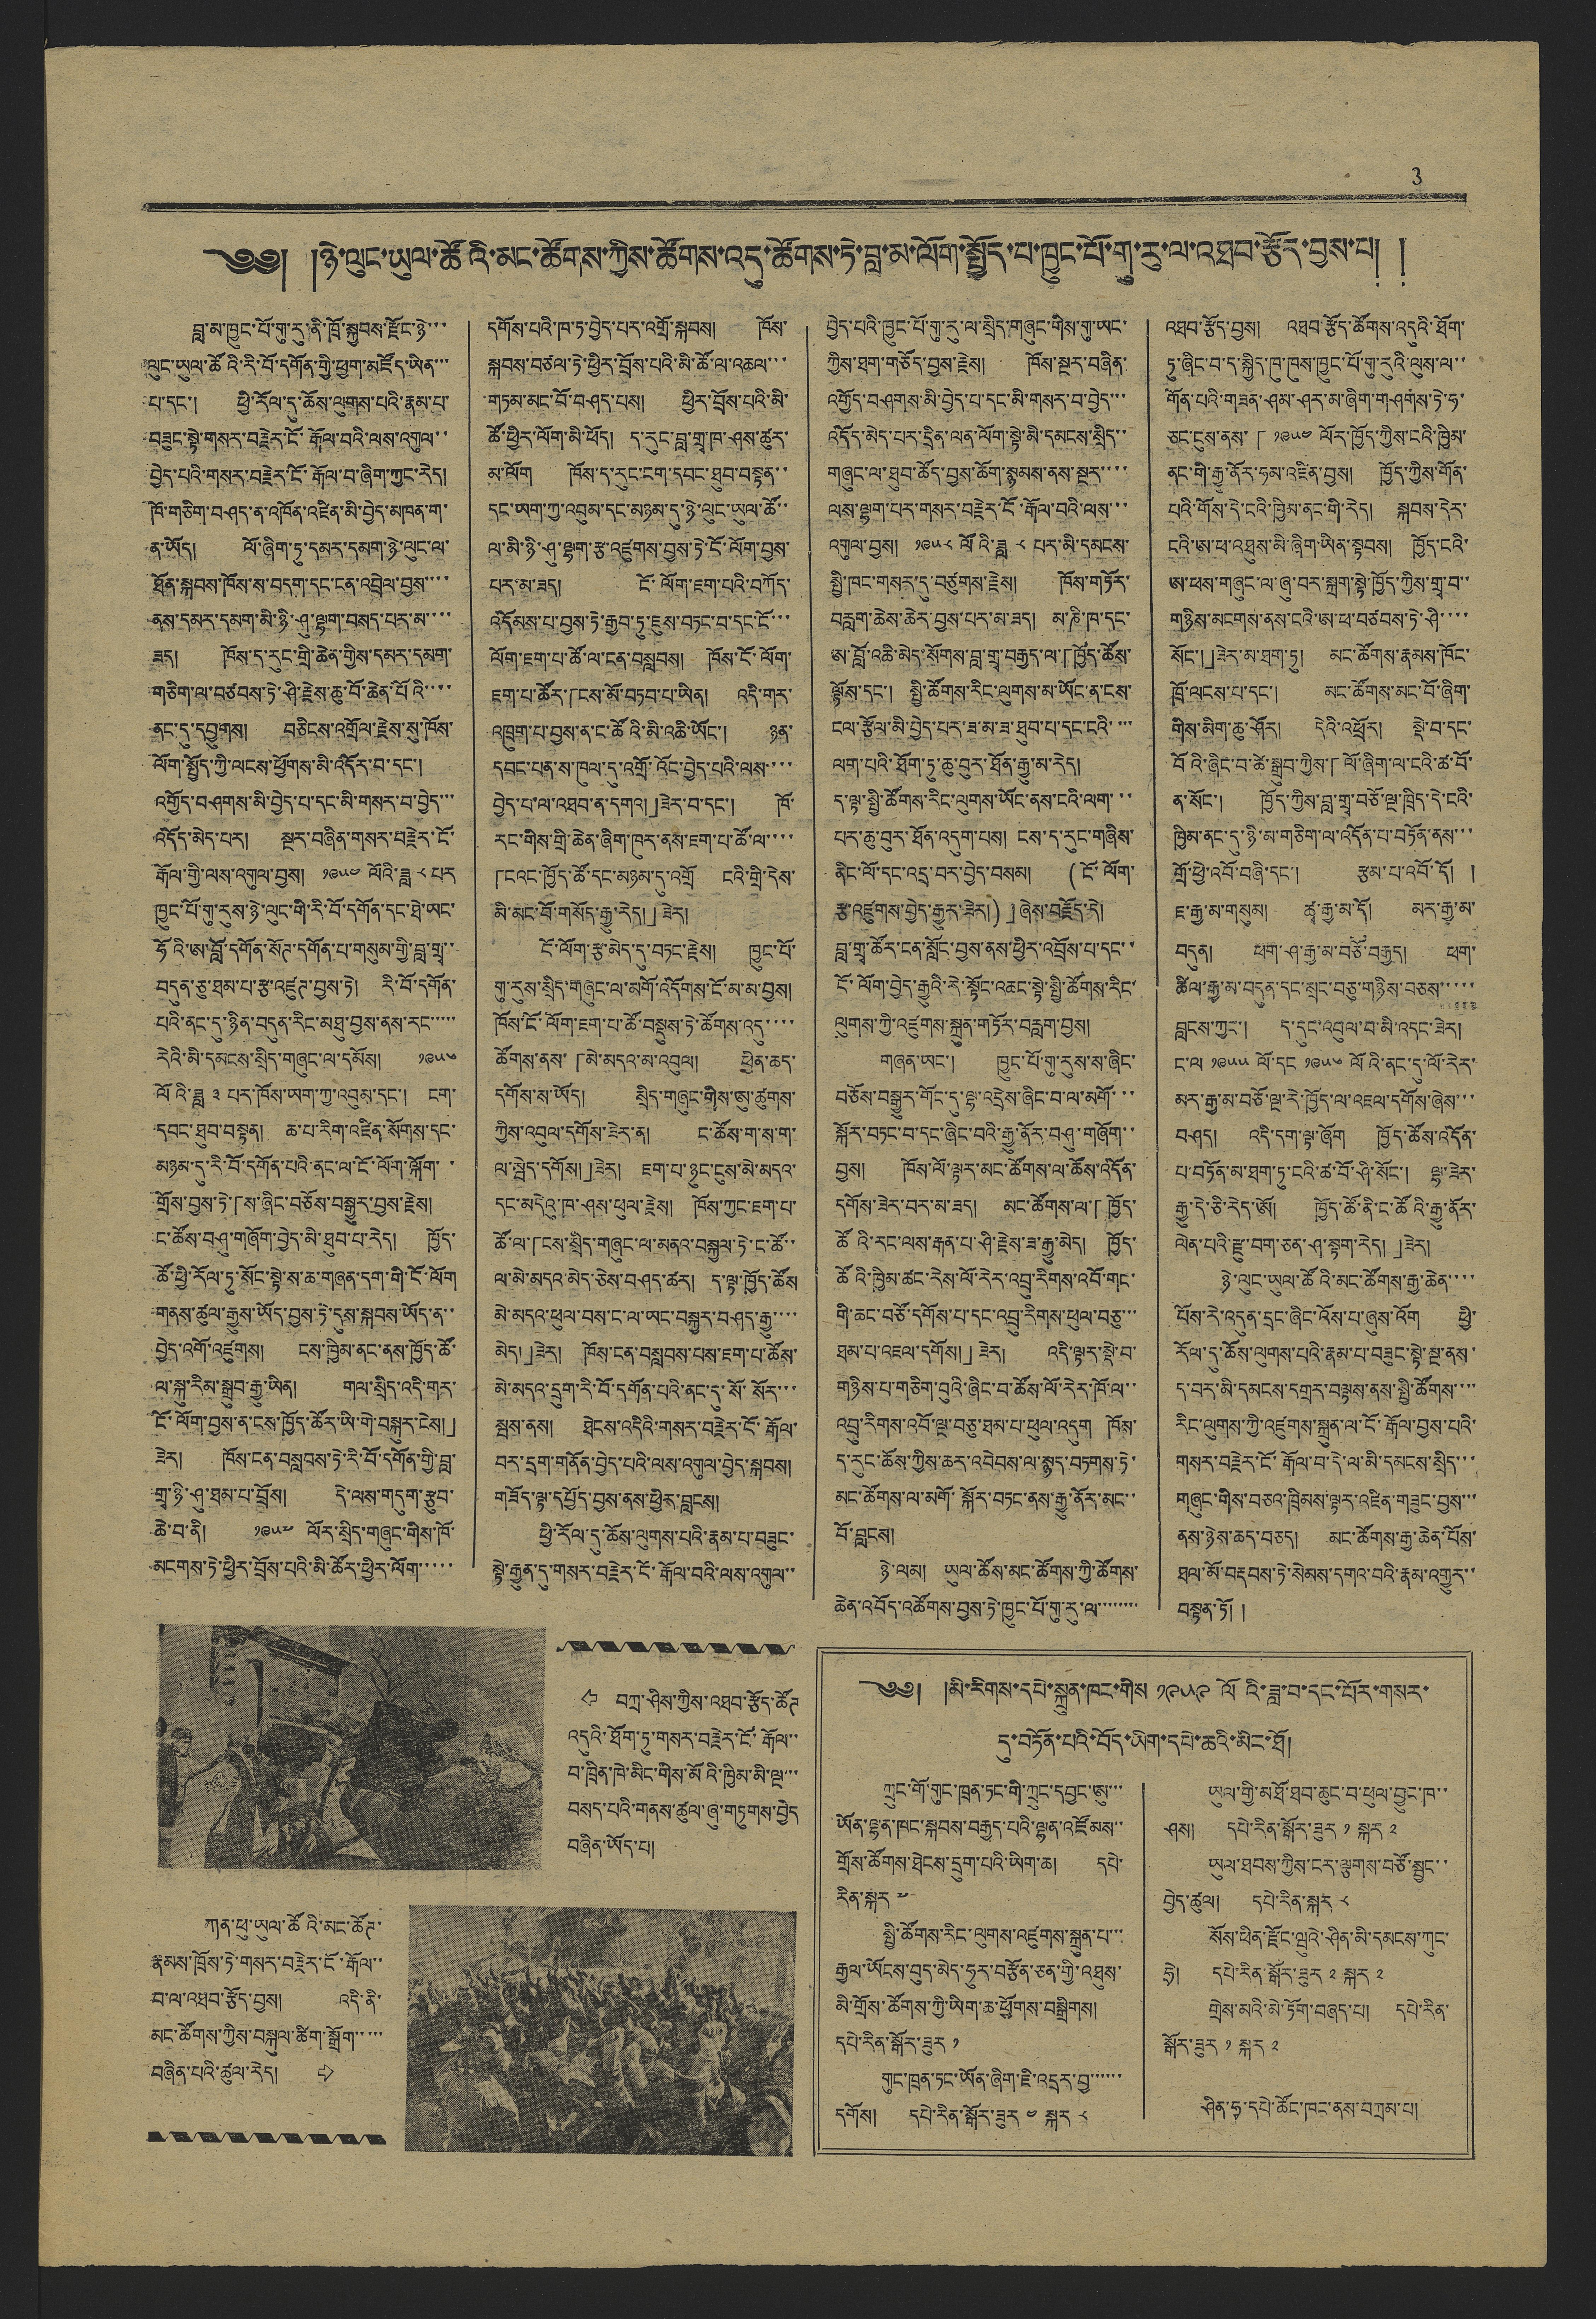3
༄༅། །ཉེ་ལུང་ཡུལ་ཚོའི་མང་ཚོགས་ཀྱིས་ཚོགས་འདུ་ཚོགས་ཏེ་བླ་མ་ལོག་སྤྱོད་པ་ཁྱུང་པོ་གུ་རུ་ལ་འཐབ་རྩོད་བྱས་པ། །
བླ་མ་ཁྱུང་པོ་གུ་རུ་ནི་ཁྲོ་སྐྱབས་རྫོང་ཉེ་་་
ལུང་ཡུལ་ཚོའི་རི་བོ་དགོན་གྱི་ཕྱག་མཛོད་ཡིན་་་
པ་དང་། ཕྱི་རོལ་དུ་ཆོས་ལུགས་པའི་རྣམ་པ་
བཟུང་སྟེ་གསར་བརྗེར་ངོ་རྒོལ་བའི་ལས་འགུལ་་
བྱེད་པའི་གསར་བརྗེར་ངོ་རྒོལ་བ་ཞིག་ཀྱང་རེད།
ཁོ་གཅིག་བཤད་ན་འཁོན་འཛིན་མི་བྱེད་མཁན་ག་
ན་ཡོད། ལོ་ཞིག་ཏུ་དམར་དམག་ཉེ་ལུང་ལ་
ཐོན་སྐབས་ཁོས་ས་བདག་དང་ངན་འབྲེལ་བྱས་་་་
ནས་དམར་དམག་མི་ཉི་ཤུ་ལྷག་བསད་པར་མ་་་་
ཟད། ཁོས་ད་རུང་གྲི་ཆེན་གྱིས་དམར་དམག་
གཅིག་ལ་བཙབས་ཏེ་ཤི་རྗེས་ཆུ་བོ་ཆེན་པོའི་་་་
ནང་དུ་དབྱུགས། བཅིངས་འགྲོལ་རྗེས་སུ་ཁོས་
ལོག་སྤྱོད་ཀྱི་ལངས་ཕྱོགས་མི་འདོར་བ་དང་།
འགྱོད་བཤགས་མི་བྱེད་པ་དང་མི་གསར་བ་བྱེད་་་
འདོད་མེད་པར། སྔར་བཞིན་གསར་བརྗེར་ངོ་
རྒོལ་གྱི་ལས་འགུལ་བྱས། ༡༩༥༤ ལོའི་ཟླ ༨ པར་
ཁྱུང་པོ་གུ་རུས་ཉེ་ལུང་གི་རི་བོ་དགོན་དང་ཐེ་ཡང་
ཧོའི་ཨ་བློ་དགོན་སོཊ་དགོན་པ་གསུམ་གྱི་བླ་གྲྭ་་
བདུན་ཅུ་ཐམ་པ་རྩ་འཛུཊ་བྱས་ཏེ། རི་བོ་དགོན་
པའི་ནང་དུ་ཉིན་བདུན་རིང་མཐུ་བྱས་ནས་རང་་་་
རེའི་མི་དམངས་སྲིད་གཞུང་ལ་དམོས། ༡༩༥༦
ལོའི་ཟླ ༣ པར་ཁོས་ཡག་ཀྱ་འབུམ་དང་། ངག་
དབང་ཐུབ་བསྟན། ཆ་པ་རིག་འཛིན་སོགས་དང་
མཉམ་དུ་རི་བོ་དགོན་པའི་ནང་ལ་ངོ་ལོག་ལྐོག་་
གྲོས་བྱས་ཏེ་「ས་ཞིང་བཅོས་བསྒྱུར་བྱས་རྗེས།
ང་ཚོས་བཤུ་གཞོག་བྱེད་མི་ཐུབ་པ་རེད། ཁྱོད་
ཚོ་ཕྱི་རོལ་ཏུ་སོང་སྟེ་ས་ཆ་གཞན་དག་གི་ངོ་ལོག
གནས་ཚུལ་རྒྱུས་ཡོད་བྱས་ཏེ་དུས་སྐབས་ཡོད་ན་་
བྱེད་འགོ་འཛུགས། ངས་ཁྱིམ་ནང་ནས་ཁྱོད་ཚོ་
ལ་སྐུ་རིམ་སྒྲུབ་རྒྱུ་ཡིན། གལ་སྲིད་འདི་གར་
ངོ་ལོག་བྱས་ན་ངས་ཁྱོད་ཚོར་ཡི་གེ་བསྐུར་ངེས།」
ཟེར། ཁོས་ངན་བསླབས་ཏེ་རི་བོ་དགོན་གྱི་བླ་
གྲྭ་ཉི་ཤུ་ཐམ་པ་བྲོས། དེ་ལས་གདུག་རྩུབ་
ཆེ་བ་ནི། ༡༩༥༧ ལོར་སྲིད་གཞུང་གིས་ཁོ་
མངགས་ཏེ་ཕྱིར་བྲོས་པའི་མི་ཚོར་ཕྱིར་ལོག་་་་་
དགོས་པའི་ཁ་ཏ་བྱེད་པར་འགྲོ་སྐབས། ཁོས་
སྐབས་བཙལ་ཏེ་ཕྱིར་བྲོས་པའི་མི་ཚོ་ལ་འཆལ་་་
གཏམ་མང་བོ་བཤད་པས། ཕྱིར་བྲོས་པའི་མི་
ཚོ་ཕྱིར་ལོག་མི་ཕོད། ད་རུང་བླ་གྲྭ་ཁ་ཤས་ཚུར་
མ་ལོག ཁོས་ད་རུང་ངག་དབང་ཐུབ་བསྟན་་
དང་ཡག་ཀྱ་འབུམ་དང་མཉམ་དུ་ཉེ་ལུང་ཡུལ་ཚོ་་
ལ་མི་ཉི་ཤུ་ལྷག་རྩ་འཛུགས་བྱས་ཏེ་ངོ་ལོག་བྱས་
པར་མ་ཟད། ངོ་ལོག་ཇག་པའི་བཀོད་
འདོམས་པ་བྱས་ཏེ་རྒྱབ་ཏུ་ཇུས་བཏང་བ་དང་ངོ་་་
ལོག་ཇག་པ་ཚོ་ལ་ངན་བསླབས། ཁོས་ངོ་ལོག་
ཇག་པ་ཚོར་「ངས་མོ་བཏབ་པ་ཡིན། འདི་གར་
འཁྲུག་པ་བྱས་ན་ང་ཚོའི་མི་འཆི་ཡོང་། ཉན་
དབང་པན་ས་ཁུལ་དུ་འགྲོ་འོང་བྱེད་པའི་ལས་་་་
བྱེད་པ་ལ་འཐབ་ན་དགའ།」ཟེར་བ་དང་། ཁོ་
རང་གིས་གྲི་ཆེན་ཞིག་ཁུར་ནས་ཇག་པ་ཚོ་ལ་་་་
「ངའང་ཁྱོད་ཚོ་དང་མཉམ་དུ་འགྲོ ངའི་གྲི་དེས་
མི་མང་བོ་གསོད་རྒྱུ་རེད།」 ཟེར།
ངོ་ལོག་རྩ་མེད་དུ་བཏང་རྗེས། ཁྱུང་པོ་
གུ་རུས་སྲིད་གཞུང་ལ་མགོ་འདོགས་ངོ་མ་མ་བྱས།
ཁོས་ངོ་ལོག་ཇག་པ་ཚོ་བསྡུས་ཏེ་ཚོགས་འདུ་་་་
ཚོགས་ནས་「མེ་མདའ་མ་འབུལ། ཕྱིན་ཆད་
དགོས་ས་ཡོད། སྲིད་གཞུང་གིས་ཨུ་ཚུགས་
ཀྱིས་འབུལ་དགོས་ཟེར་ན། ང་ཚོས་ག་ས་ག་
ལ་སྦེད་དགོས།」ཟེར། ཇག་པ་ཉུང་ངུས་མེ་མདའ་
དང་མདེའུ་ཁ་ཤས་ཕུལ་རྗེས། ཁོས་ཀྱང་ཇག་པ་
ཚོ་ལ་「ངས་སྲིད་གཞུང་ལ་མནའ་བསྐྱལ་ཏེ་ང་ཚོ་་
ལ་མེ་མདའ་མེད་ཅེས་བཤད་ཚར། ད་ལྟ་ཁྱོད་ཚོས
མེ་མདའ་ཕུལ་བས་ང་ལ་ཡང་བསྐྱར་བཤད་རྒྱུ་་་་
མེད།」ཟེར། ཁོས་ངན་བསླབས་པས་ཇག་པ་ཚོས་
མེ་མདའ་དྲུག་རི་བོ་དགོན་པའི་ནང་དུ་སོ་སོར་་
སྦས་ནས། ཐེངས་འདིའི་གསར་བརྗེར་ངོ་རྒོལ་
བར་དྲག་གནོན་བྱེད་པའི་ལས་འགུལ་བྱེད་སྐབས།
གཟོད་ལྟ་དཔྱོད་བྱས་ནས་ཕྱིར་བླངས།
ཕྱི་རོལ་དུ་ཆོས་ལུགས་པའི་རྣམ་པ་བཟུང་
སྟེ་རྒྱུན་དུ་གསར་བརྗེར་ངོ་རྒོལ་བའི་ལས་འགུལ་་
བྱེད་པའི་ཁྱུང་པོ་གུ་རུ་ལ་སྲིད་གཞུང་གིས་གུ་ཡང་
ཀྱིས་ཐག་གཅོད་བྱས་རྗེས། ཁོས་སྔར་བཞིན་
འགྱོད་བཤགས་མི་བྱེད་པ་དང་མི་གསར་བ་བྱེད་་་
འདོད་མེད་པར་དྲིན་ལན་ལོག་སྟེ་མི་དམངས་སྲིད་་
གཞུང་ལ་ཐུབ་ཚོད་བྱས་ཆོག་སྙམས་ནས་སྔར་་་་
ལས་ལྷག་པར་གསར་བརྗེར་ངོ་རྒོལ་བའི་ལས་་་
འགུལ་བྱས། ༡༩༥༨ ལོའི་ཟླ ༨ པར་མི་དམངས་
སྤྱི་ཁང་གསར་དུ་བཙུགས་རྗེས། ཁོས་གཏོར་
བརླག་ཆེས་ཆེར་བྱས་པར་མ་ཟད། མ་ཎི་ཁ་དང་
ཨ་བློ་འཆི་མེད་སོགས་བླ་གྲྭ་བརྒྱད་ལ་「ཁྱོད་ཚོས་
ལྟོས་དང་། སྤྱི་ཚོགས་རིང་ལུགས་མ་ཡོང་ན་ངས་
ངལ་རྩོལ་མི་བྱེད་པར་ཟ་མ་ཟ་ཐུབ་པ་དང་ངའི་་་་
ལག་པའི་ཐོག་ཏུ་ཆུ་བུར་ཐོན་རྒྱུ་མ་རེད།
ད་ལྟ་སྤྱི་ཚོགས་རིང་ལུགས་ཡོང་ནས་ངའི་ལག་་་
པར་ཆུ་བུར་ཐོན་འདུག་པས། ངས་ད་རུང་གཞིས་
ནིང་ལོ་དང་འདྲ་བར་བྱེད་བསམ། (ངོ་ལོག་
རྩ་འཛུགས་བྱེད་རྒྱུར་ཟེར།)」ཞེས་བརྗོད་དེ།
བླ་གྲྭ་ཚོར་ངན་སློང་བྱས་ནས་ཕྱིར་འབྲོས་པ་དང་་
ངོ་ལོག་བྱེད་རྒྱུའི་ནེ་སྟོང་འཆང་སྟེ་སྤྱི་ཚོགས་རིང་
ལུགས་ཀྱི་འཛུགས་སྐྲུན་གཏོར་བརླག་བྱས།
གཞན་ཡང་། ཁྱུང་པོ་གུ་རུས་ས་ཞིང་
བཅོས་བསྒྱུར་གོང་དུ་ལྷ་འདྲེས་ཞིང་བ་ལ་མགོ་་་
སྐོར་བཏང་བ་དང་ཞིང་བའི་རྒྱུ་ནོར་བཤུ་གཞོག་
བྱས། ཁོས་ལོ་ལྟར་མང་ཚོགས་ལ་ཆོས་འདོན་
དགོས་ཟེར་བར་མ་ཟད། མང་ཚོགས་ལ་「ཁྱོད་
ཚོའི་རང་ལས་རྒན་པ་ཤི་རྗེས་ཟ་རྒྱུ་མེད། ཁྱོད་
ཚོའི་ཁྱིམ་ཚང་རེས་ལོ་རེར་འབྲུ་རིགས་འབོ་གང་
གི་ཆང་བཙོ་དགོས་པ་དང་འབྲུ་རིགས་ཕུལ་བཅུ་་་
ཐམ་པ་འཇལ་དགོས།」ཟེར། འདི་ལྟར་སྡེ་བ་
གཉིས་པ་གཅིག་བུའི་ཞིང་བ་ཚོས་ལོ་རེར་ཁོ་ལ་་
འབྲུ་རིགས་འབོ་ལྔ་བཅུ་ཐམ་པ་ཕུལ་འདུག ཁོས་
ད་རུང་ཆོས་ཀྱིས་ཆར་འབེབས་ལ་སྙད་བཏགས་ཏེ
མང་ཚོགས་ལ་མགོ་སྐོར་བཏང་ནས་རྒྱུ་ནོར་མང་་
པོ་བླངས།
ཉེ་ལམ། ཡུལ་ཚོས་མང་ཚོགས་ཀྱི་ཚོགས་
ཆེན་འབོད་འཚོགས་བྱས་ཏེ་ཁྱུང་པོར་གུ་རུ་ལ་་་་་་་་
འཐབ་རྩོད་བྱས། འཐབ་རྩོད་ཚོགས་འདུའི་ཐོག་
ཏུ་ཞིང་བ་ད་སྐྱིད་ཁུ་ཁུས་ཁྱུང་པོ་གུ་རུའི་ལུས་ལ་་
གོན་པའི་གཟན་ཤམ་ཤར་མ་ཞིག་གཤགས་ཏེ་ཧ་
ཅང་ངུས་ནས་「༡༩༥༤ ལོར་ཁྱོད་ཀྱིས་ངའི་ཁྱིམ་
ནང་གི་རྒྱུ་ནོར་ཧམ་འཛིན་བྱས། ཁྱོད་ཀྱིས་གོན་
པའི་གོས་དེ་ངའི་ཁྱིམ་ནང་གི་རེད། སྐབས་དེར་
ངའི་ཨ་ཕ་འཐུས་མི་ཞིག་ཡིན་སྟབས། ཁྱོད་ངའི་
ཨ་ཕས་གཞུང་ལ་ཞུ་བར་སྐྲག་སྟེ་ཁྱོད་ཀྱིས་གྲྭ་བ་
གཉིས་མངགས་ནས་ངའི་ཨ་ཕ་བཙབས་ཏེ་ཤི་་་
སོང་།」ཟེར་མ་ཐག་ཏུ། མང་ཚོགས་རྣམས་ཁོང་
ཁྲོ་ལངས་པ་དང་། མང་ཚོགས་མང་བོ་ཞིག་
གིས་མིག་ཆུ་ཤོར། དེའི་འཕྲོར། སྡེ་བ་དང་
བོའི་ཞིང་བ་ཚེ་སྒྲུབ་ཀྱིས་「ལོ་ཞིག་ལ་ངའི་ཚ་བོ་
ན་སོང་། ཁྱོད་ཀྱིས་བླ་གྲྭ་བཅོ་ལྔ་ཁྲིད་དེ་ངའི་
ཁྱིམ་ནང་དུ་ཉི་མ་གཅིག་ལ་འདོན་པ་བཏོན་ནས་་་
གྲོ་ཕྱེ་འབོ་བཞི་དང་། རྩམ་པ་འབོ་དོ། །
ཇ་རྒྱ་མ་གསུམ། ཚྭ་རྒྱ་མ་དོ། མར་རྒྱ་མ་
བདུན། ཕག་ཤ་རྒྱ་མ་བཙོ་བརྒྱད། ཕག་
ཚིལ་རྒྱ་མ་བདུན་དང་སྲང་བཅུ་གཉིས་བཅས་་་་་
བླངས་ཀྱང་། ད་དུང་འབུལ་བ་མི་འདང་ཟེར།
ང་ལ ༡༩༥༥ ལོ་དང ༡༩༥༦ ལོའི་ནང་དུ་ལོ་རེར་
མར་རྒྱ་མ་བཅོ་ལྔ་རེ་ཁྱོད་ལ་འཇལ་དགོས་ཞེས་་
བཤད། འདི་དག་ལྟ་ཞོག ཁྱོད་ཚོས་འདོན་
པ་བཏོན་མ་ཐག་ཏུ་ངའི་ཚ་བོ་ཤི་སོང་། ལྷ་ཟེར་
རྒྱུ་དེ་ཅི་རེད་ཨོ། ཁྱོད་ཚོ་ནི་ང་ཚོའི་རྒྱུ་ནོར་
ལེན་པའི་རྫུ་བག་ཅན་ཤ་སྟག་རེད།」ཟེར།
ཉེ་ལུང་ཡུལ་ཚོའི་མང་ཚོགས་རྒྱ་ཆེན་་་་
པོས་རེ་འདུན་དྲང་ཞིང་འོས་པ་ཞུས་འོག ཕྱི་
རོལ་དུ་ཆོས་ལུགས་པའི་རྣམ་པ་བཟུང་སྟེ་སྔ་ནས་
ད་བར་མི་དམངས་དགྲར་བལྟས་ནས་སྤྱི་ཚོགས་་་་
རིང་ལུགས་ཀྱི་འཛུགས་སྐྲུན་ལ་ངོ་རྒོལ་བྱས་པའི་
གསར་བརྗེར་ངོ་རྒོལ་བ་དེ་ལ་མི་དམངས་སྲིད་་་
གཞུང་གིས་བཅའ་ཁྲིམས་ལྟར་འཛིན་གཟུང་བྱས་་་
ནས་ཉེས་ཆད་བཅད། མང་ཚོགས་རྒྱ་ཆེན་པོས་
ཐལ་མོ་བརྡབས་ཏེ་སེམས་དགའ་བའི་རྣམ་འགྱུར་་
བསྟན་ཏོ། །
⇦ བཀྲ་ཤིས་ཀྱིས་འཐབ་རྩོད་ཚོཊ
འདུའི་ཐོག་ཏུ་གསར་བརྗེར་ངོ་རྒོལ་་
བ་ཁྲིན་ཁེ་མིང་གིས་མོའི་ཁྱིམ་མི་ལྔ་་
བསད་པའི་གནས་ཚུལ་ཞུ་གཏུགས་བྱེད
བཞིན་ཡོད་པ།
ཀན་ཕུ་ཡུལ་ཚོའི་མང་ཚོཊ་
རྣམས་ཁྲོས་ཏེ་གསར་བརྗེར་ངོ་རྒོལ་་
བ་ལ་འཐབ་རྩོད་བྱས། འདི་ནི་
མང་ཚོགས་ཀྱིས་བསྐུལ་ཚིག་སྒྲག་་་་་
བཞིན་པའི་ཚུལ་རེད། ⇨
༄༅། །མི་རིགས་དཔེ་སྐྲུན་ཁང་གིས ༡༩༥༩ ལོའི་ཟླ་བ་དང་པོར་གསར་
དུ་བཏོན་པའི་བོད་ཡིག་དཔེ་ཆའི་མིང་ཐོ།
ཀྲུང་གོ་གུང་ཁྲན་ཏང་གི་ཀྲུང་དབྱང་ཨུ་་་
ཡོན་ལྷན་ཁང་སྐབས་བརྒྱད་པའི་ལྷན་འཛོམས་་
གྲོས་ཚོགས་ཐེངས་དྲུག་པའི་ཡིག་ཆ། དཔེ་
རིན་སྐར ༧
སྤྱི་ཚོགས་རིང་ལུགས་འཛུགས་སྐྲུན་པ་་་
རྒྱལ་ཡོངས་བུད་མེད་ཧུར་བརྩོན་ཅན་གྱི་འཐུས་
མི་གྲོས་ཚོགས་ཀྱི་ཡིག་ཅ་ཕྱོགས་བསྒྲིགས།
དཔེ་རིན་སྒོར་ཟུར ༡
གུང་ཁྲན་ཏང་ཡོན་ཞིག་ཇི་འདར་བྱ་་་་་་
དགོས། དཔེ་རིན་སྒོར་ཟུར ༤ སྐར ༨
ཡུལ་གྱི་མཐོ་ཐབ་ཆུང་བ་ཕུལ་བྱུང་ཁ་་
ཤས། དཔེ་རིན་སྒོར་ཟུར ༡ སྐར ༢
ཡུལ་ཐབས་ཀྱིས་ངར་ལྕགས་བཙོ་སྦྱང་་
བྱེད་ཚུལ། དཔེ་རིན་སྐར ༨
སོས་ཕིན་རྫོང་ཝུའེ་ཤིན་མི་དམངས་ཀུང་
ཧྲེ། དཔེ་རིན་སྒོར་ཟུར ༢ སྐར ༢
གྲེས་མའི་མེ་ཏོག་བཞད་པ། དཔེ་རིན་
སྒོར་ཟུར སྐར ༢
ཤིན་ཧྭ་དཔེ་ཚོང་ཁང་ནས་བགྲམ་པ།
